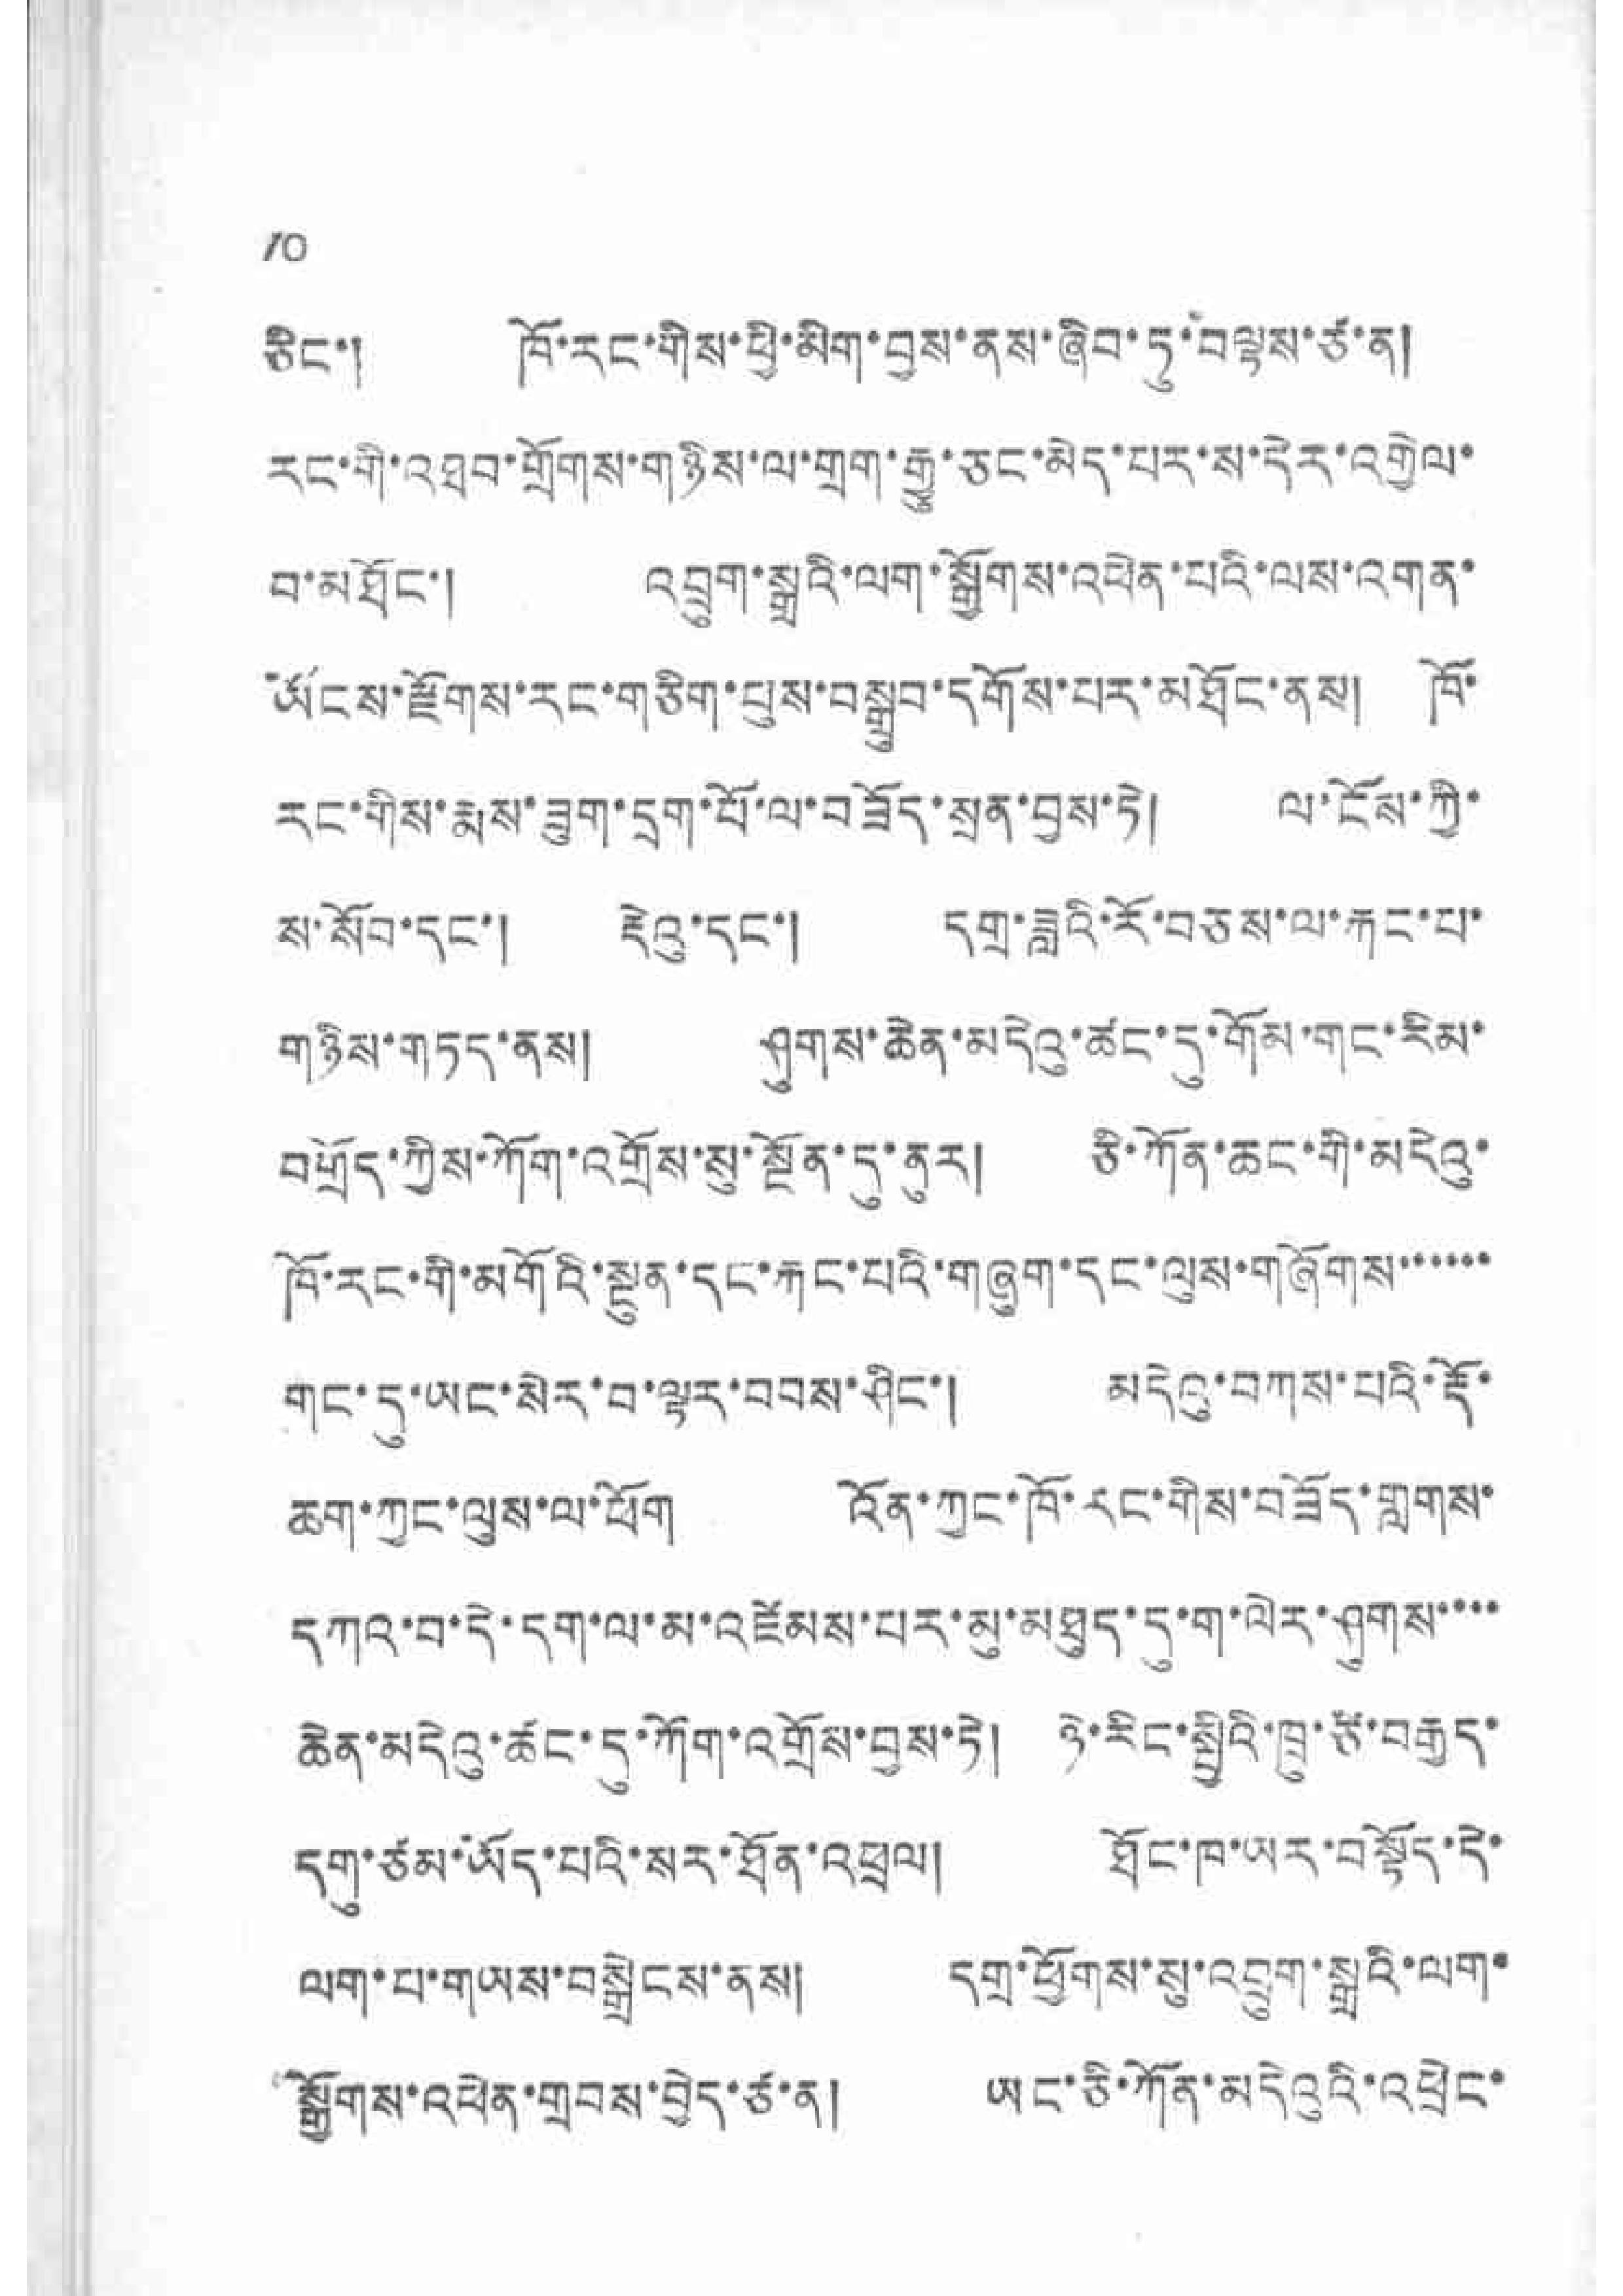10
ཅིང་། ཁོ་རང་གིས་ཕྱི་མིག་བྱས་ནས་ཞིབ་ཏུ་བལྟས་ཙ་ན།
རང་གི་འཐབ་གྲོགས་གཉིས་ལ་གྲག་རྒྱུ་ཅང་མེད་པར་ས་དེར་འགྱེལ་
བ་མཐོང་། འབྲུག་སྒྲའི་ལག་སྒྱོགས་འཕེན་པའི་ལས་འགན་
ཡོངས་རྫོགས་རང་གཅིག་པུས་བསྒྲུབ་དགོས་པར་མཐོང་ནིས། ཁོ་
རང་གིས་རྨས་ཟུག་དྲག་པོ་ལ་བཟོད་སྲན་བྱས་ཏེ། ལ་ངོས་ཀྱི་
ས་སོབ་དང་། རྡེའུ་དང་། དགྲ་ཟླའི་རོ་བཅས་ལ་རྐང་པ་
གཉིས་གཏད་ནས། ཤུགས་ཆེན་མདེའུ་ཚང་དུ་གོམ་གང་རིམ་
བགྲོད་ཀྱིས་ཀོག་འགྲོས་སུ་སྔོན་དུ་ནུར། ཅི་ཀོན་ཆང་གི་མདེའུ་
ཁོ་རང་གི་མགོའི་སྔུན་དང་རྐང་པའི་གཞུག་དང་ལུས་གཞོགས་་་་་་
གང་དུ་ཡང་སེར་བ་ལྟར་བབས་ཤིང་། མདེའུ་བཀས་པའི་རྡོ་
ཆག་ཀྱང་ལུས་ལ་ཕོག འོན་ཀྱང་ཁོ་རང་གིས་བཟོད་གླགས་
དཀའ་བ་དེ་དག་ལ་མ་འཛོམས་པར་མུ་མཐུད་དུ་ག་ལེར་ཤུགས་་་་
ཆེན་མདེའུ་ཚང་དུ་ཀོག་འགྲོས་བྱས་ཏེ། ཉེ་རིང་སྤྱིའི་ཁྲུ་ཙི་བརྒྱད་
དགུ་ཙམ་ཡོད་པའི་སར་ཐོན་འཕྲལ། ཐོང་ཁ་ཡར་བསྟོད་དེ་
ལག་པ་གཡས་བསྒྲེངས་ནས། དགྲ་ཕྱོགས་སུ་འབྲུག་སྒྲའི་ལག་
སྒྱོགས་འཕེན་གྲབས་བྱེད་ཙ་ན། ཡང་ཅི་ཀོན་མདེའུའི་འཕྲེང་
